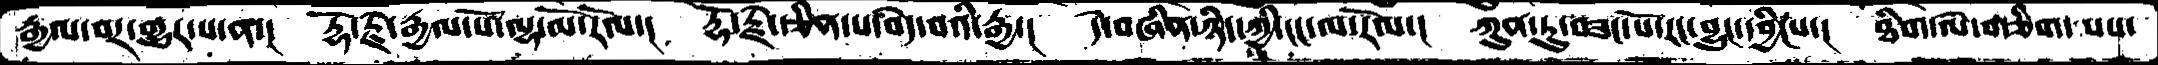རྒྱལ་བར་གྱུར་པ་ན་།  རྡོ་རྗེ་རྒྱལ་པོ་ལྷ་མོ་རོལ་།  རྡོ་རྗེ་རྩིན་པ་བདེ་བའི་རྒྱ་།  དེ་བཞིན་ཉིད་ཀྱི་ངང་ལ་རོལ་།  ཀུན་ཏུ་བཟང་པོ་རང་བྱུང་དབྱིངས་།  ཐིག་ལེ་གཅིག་པས་
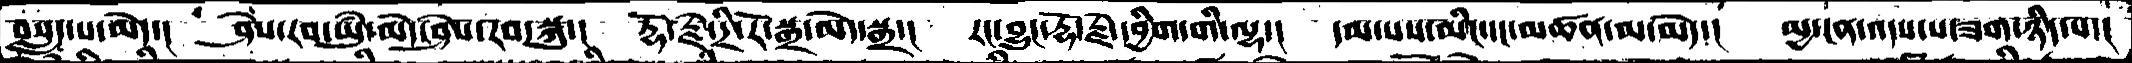བསླད་པ་མེད་།  ཤེས་རབ་ཡུཾ་མེད་ཤེས་རབ་སྐུ་།  རྡོ་རྗེ་དྲི་རོ་སྒྲ་མེད་སྒྲ་།  རང་བྱུང་རྡོ་རྗེ་དབྱིག་གི་ལྷ་།  དམ་པས་མིང་དང་མཚན་མ་མེད་།  མྱ་ངན་འདས་པ་ཟག་ཉིད་པ་།
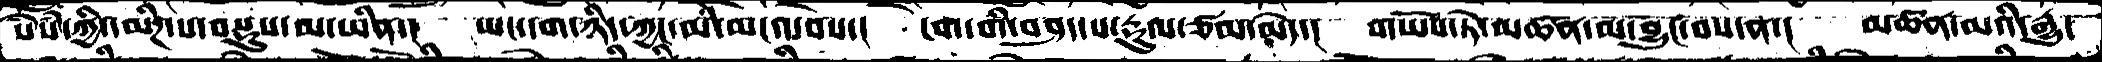སེཾས་ཀྱི་དམིཌ་པ་བསྡུས་མ་ཡིན་།   ཡང་དག་ཉིད་ཀྱང་མི་མངའ་བས་།  ངག་གི་བཤད་པ་རྡུལ་ཙམ་མེད་།  གཡོས་ཏེ་མཚན་མ་བྱུང་བས་ན་།  མཚན་མའི་རྒྱུ་
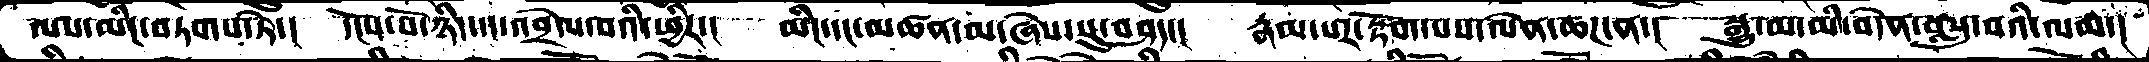ལས་མིང་བཏགས་ཏེ་།  དངོས་པོ་ཉིད་དང་འབྲེལ་བའི་ཕྱིར་།  མིང་དང་མཚན་མ་ཞེས་སུ་བཤད་།  རྣམ་པར་རྟོག་པས་ལེན་ཆཌ་ན་།  སྒྱུ་མ་མི་བདེན་བསླུ་བའི་ལམ་།
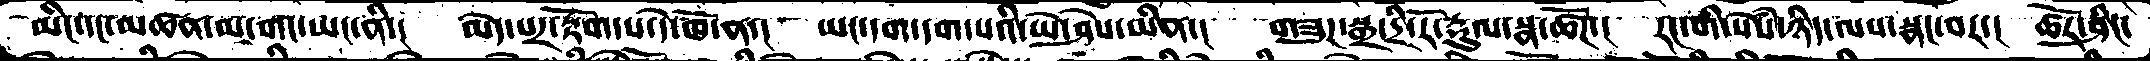མིང་དང་མཚན་མ་གང་ཡང་ནི་།  མེད་པར་རྟོག་པ་དེ་ཁོ་ན་།  ཡང་དག་དག་པའི་ཡེ་ཤེས་ཡིན་།   གཟུཌ་སྒྲ་དྲི་རོ་རྡུལ་སྣ་ཚོཌ་།  རང་གི་སེཾས་ཉིད་ལས་སྣང་བར་།  ཚོར་ཤིང་
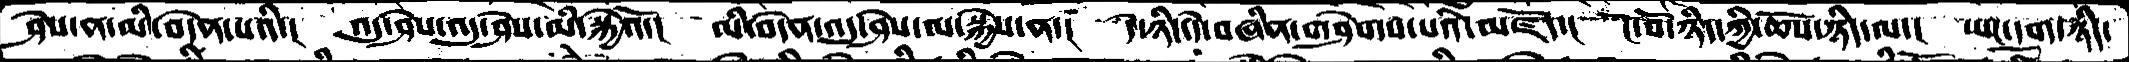ཤེས་ན་མི་བདེན་པའི་།  འདུ་ཤེས་འདུ་ཤེས་མི་སྐྱེའོ་།  ལཾ་བདེན་འདུ་ཤེས་མ་སྐྱེས་ན་།  དེ་ཉིད་དེ་བཞིན་གཤེགས་པའི་མཛོད་།  ངོ་བོ་ཉིད་ཀྱི་ཆོས་ཉིད་ལ་།  ཡང་དག་ཉིད་
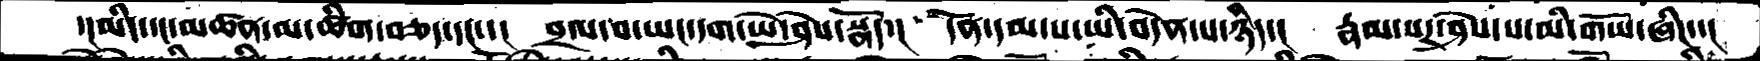་།མིང་དང་མཚན་མ་ཚིག་བཅད་དང་་།  བྲལ་བ་ཡང་དག་ཡེ་ཤེས་སྣོད་།  དོན་དམ་པ་ཡི་བདེན་པ་ཉིད་།  རྣམ་པར་ཤེས་པ་མི་གཡོ་ཞིང་་།
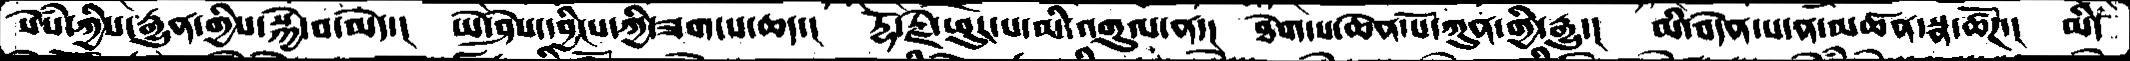སེཾས་ཀྱིས་རྒྱུན་གྱིས་སྐྱེ་བ་མེད་།  ཡེ་ཤེས་དབྱིངས་ཀྱི་ཟག་པ་ཆད་།  རྡོ་རྗེ་ཕུར་པ་མི་འགུལ་ན་།  ཐེག་པ་ཆེན་པོ་ཀུན་གྱི་རྒྱུ་།  མི་བདེན་པ་ན་མཚན་སྣ་ཚོཌ་།  མི་
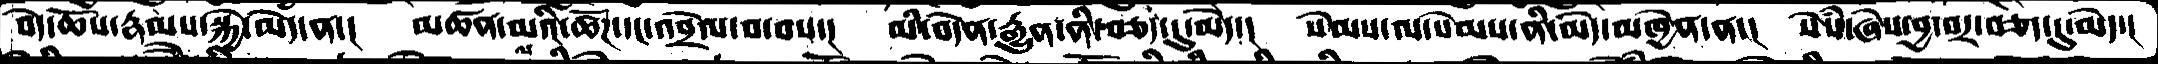བདེ་ཆོས་རྣམས་སྐྱེ་མེད་ན་།  མཚན་མའི་ཚོཌ་དང་འབྲེལ་བ་བས་།  མི་བདེན་རྒྱུན་ནི་བཅད་དུ་མེད་།  སེམས་ལ་སེམས་ནི་མེད་མཁྱེན་ན་།  སེཾས་ཞེས་བྱ་བར་བཅད་དུ་མེད་།
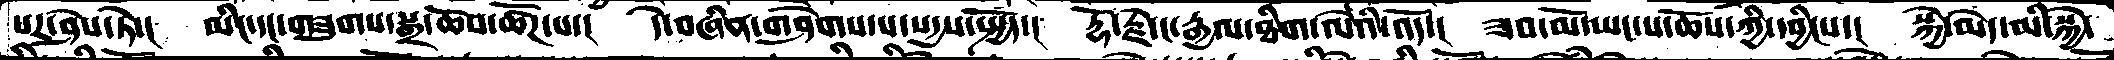པར་ཤེས་ཏེ་།  མིང་དང་གཟུགས་སྒྲ་ཆོས་ཚོཌ་པ་།  དེ་བཞིན་གཤེགས་པ་སདྱས་སྤྱོད་།  རྡོ་རྗེ་ང་རྒྱལ་ཐིག་ལེའི་འོད་།  ཟབ་མོ་ཡང་པ་ཆོས་ཀྱི་དབྱིངས་།  སྐྱེ་མེད་མི་སྐྱེ་
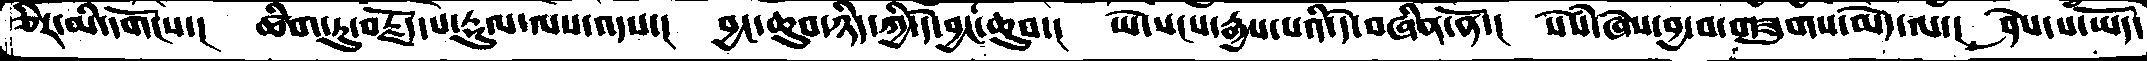ཅིར་མི་དགོངས་།   ཚིག་ཏུ་བརྗོད་པ་རྡུལ་ལས་འདས་།  བྱང་ཆུབ་ཉིད་ཀྱི་དེ་བྱང་ཆུབ་།  ཡེ་སངས་རྒྱས་པའི་དེ་བཞིན་ནོ་།   སེཾས་ཞེས་བྱ་བ་གཟུགས་མེད་ལ་།  ཤེས་པ་ཡོད་
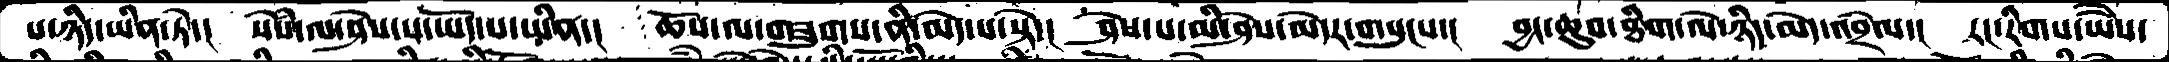པ་ཉིད་ཡིན་ཏེ་།  སེསཾ་ལ་ཤེས་པ་ཡོད་པ་ཡིན་།  ཆོས་ལ་གཟུགས་ནི་མེད་པ་སྟེ་།  ཤེས་པ་མི་ཤེས་མེདར་གསུངས་།  བྱང་ཆུབ་ཐིག་ལེ་ཉིད་མེད་འབྲེལ་།  རང་་རིགས་ཡཻས་
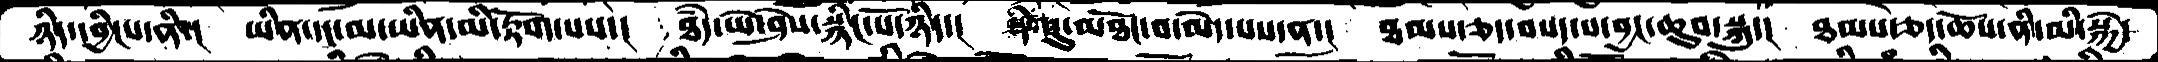ཉིད་དབྱིངས་ནི་།  ཡིན་དང་མ་ཡིན་མི་རྟོག་པས་།  ཐཾད་ཡེ་ཤེས་སྙིང་པོ་ཉིད་།  སྡིབ་དུ་མཐོང་བ་མེད་པས་ན་།  ཐམས་ཅད་བསད་པ་བྱང་ཆུབ་སྐུ་།  ཐམས་ཅད་ཆོས་ནི་མི་སྐྱེ་
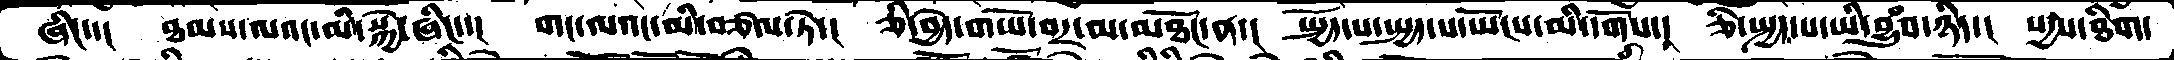ཞིང་་།  ཐམས་ལའང་མི་སྐྱེ་ཞིང་་།  གང་ལའང་མི་བཙལ་ཏེ་།  ཅི་བྱེད་གཡོ་བར་མ་མཐོང་ན་།  སྤྱོད་པ་སྤྱད་པ་ཡོངས་མི་དགོས་།  ཅི་སྤྱད་པ་ཡི་བྱུཾབ་ཉིད་།  སདྱས་ཐིག་
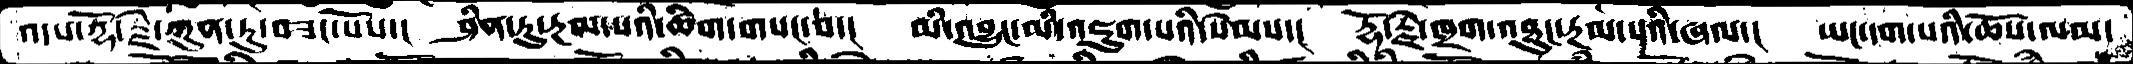འདས་རྡོ་རྗེ་ཀུན་ཏུ་བཟང་པོས་།  ཤིན་ཏུ་རྔམ་པའི་ཚིག་གསང་བ་།  མི་འབྱུང་མི་འཇུག་པའི་སེམས་།  རྡོ་རྗེ་ཁྲག་འཐུང་རྔམ་པའི་ཞལ་།  ཡང་དག་པའི་ཆོས་ལམ་
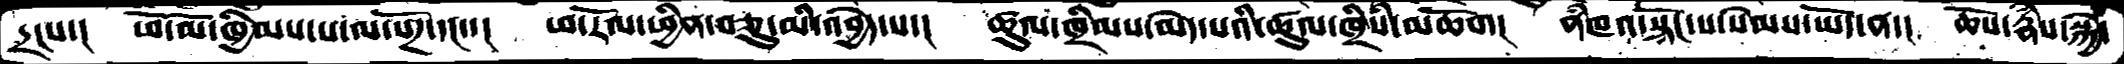དྲངས་།  ཕོ་མོ་ཁྱིམས་པ་ལ་སོཌ་དང་་།  ཕ་རོལ་ཕྱིན་བཅུ་མི་འབྱེད་པ་།  ཚུལ་ཁྲིམས་མེད་པའི་ཚུལ་ཁྲིསཾ་མཆོག།  ནཾཁའ་སྟོང་པ་སེམས་ཡོད་ན་།  ཆོས་རྣཾས་སྐྱེ་
